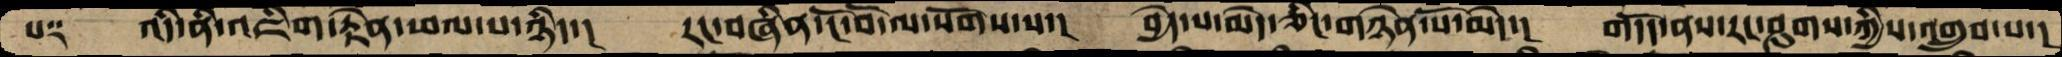པ༑   འདི་ནི་འཇིག་རྟེན་ཕལ་པ་ཉིད་།  རང་བཞིན་ངོ་བོ་ལ་སོགས་པ་།  བྱེད་པ་མེད་ཅིང་གཉེན་པོ་མེད་།  གདོད་ནས་རང་ཤུགས་ཀྱིས་འགྲུབ་པ་།
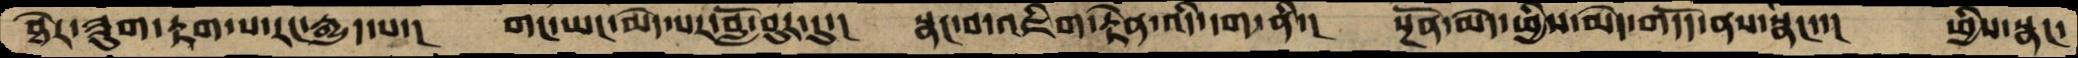ཐེར་ཟུག་རྟག་པ་རང་རྒྱུད་པ་།  གང་ཡང་མེད་པར་བློ་བུར་དུ་།  སྣང་བ་འཇིག་རྟེན་འདི་དག་ནི་།  སྔོན་མེད་ཕྱིས་མེད་གདོད་ནས་སྣང་་།  ཕྱིས་སྣང་
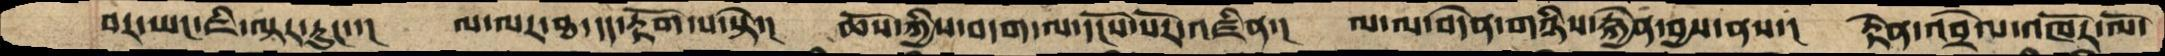བར་ཡང་ཇི་ལྟར་རུང་་།  ལ་ལར་ཐ་དད་རྟོག་པ་སྟེ་།  ཆོས་ཀྱིས་བདག་ལ་དངོས་པོར་འཛིན་།  ལ་ལ་བདེན་གཉིས་རྐྱེན་བྱས་ནས་།  རྟེན་འབྲེལ་འཁོར་ལོ་
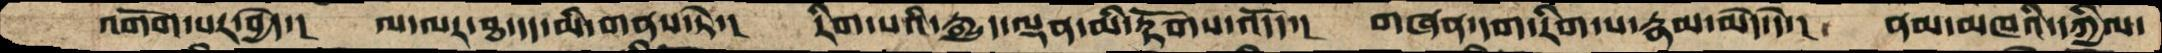འགོག་པར་བྱེད་།   ལ་ལར་ཐ་དད་མི་གནས་ཏེ་།  རིག་པའི་རྒྱུད་ལྡན་མི་རྟོགས་འདོད་།  གཞན་དག་རིག་པ་རྣམ་མེད་དེ་།  ནམ་མཁའི་དཀྱིལ་
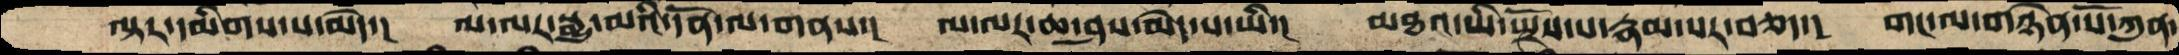ལྟར་དམིགས་པ་མེད་།།  ལ་ལར་སྒྱུ་མའི་དོན་ལ་གནས་།  ལ་ལར་ཆ་ཤས་མེད་པ་ཡི་།  མཐའ་ཡི་སྤྲོས་པ་རྣམ་པར་བཅད་།  གང་ལ་གཉེན་པོ་ཀུན་
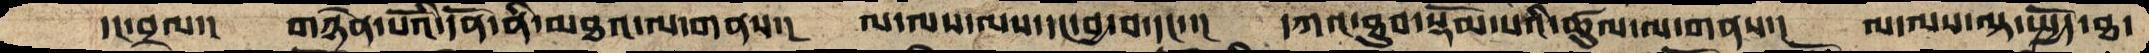དང་བྲལ་།  གཉེན་པོའི་དོན་ནི་མཐའ་ལ་གནས་།  ལ་ལས་ལས་དང་བྱ་བ་དང་་།  དཀའ་ཐུབ་སྡོམ་པའི་ཚུལ་ལ་གནས་།  ལ་ལས་ལྟ་སྤྱོད་ཐ་
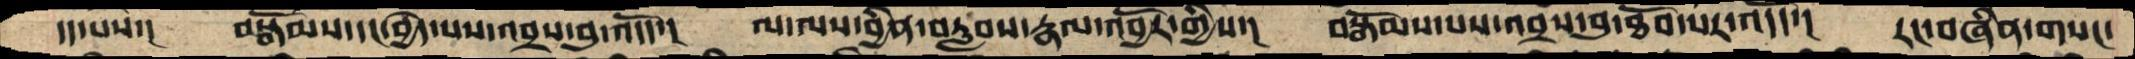དད་པས་།  བསྒོམས་དང་བྱེད་པས་འབྲས་བུ་འདོད་།  ལ་ལས་བྱིན་བརླབས་རྣལ་འབྱོར་གྱིས་།  བསྒོམས་པས་འབྲས་བུ་ཐོབ་པར་འདོད་།  རང་བཞིན་གསང་
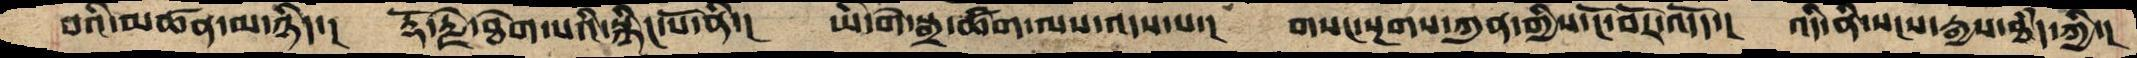བའི་མཚན་མ་ཉིད་།  རྡོ་རྗེ་ཐེག་པའི་སྙིང་པོ་ནི་།  ཡི་གེ་སྒྲ་ཚིག་ལས་འདས་པ་།  གསང་སྔགས་ཀུན་གྱིས་ངོ་བོར་འདོད་།  འདི་ནི་སངས་རྒྱས་ཐཾད་ཀྱི་།
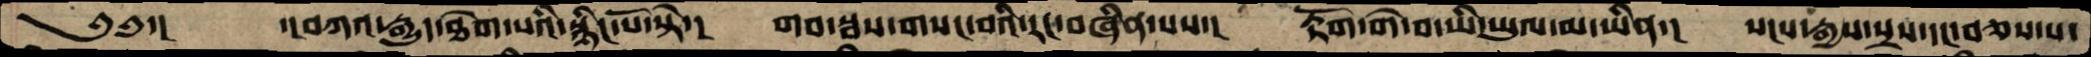༄༅་།      ་།བཀའ་རྒྱུད་ཐེག་པའི་སྙིང་པོ་སྟེ་།  གབ་སྦས་གསང་བའི་རང་བཞིན་པས་།  རྟོག་གེ་བ་ཡི་ཡུལ་མ་ཡིན་།  སངས་རྒྱས་སྲས་དང་བཅས་པ་
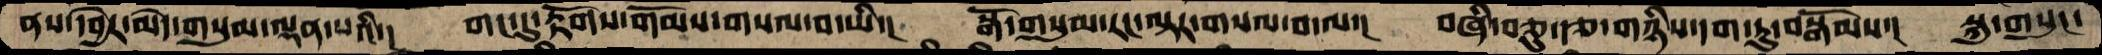ནས་དབྱེར་མེད་གསུམ་ལྡན་པའི་།  གང་དུ་རྟོགས་གོམས་གསལ་བ་ཡི་།  སྒོ་གསུམ་རང་ལྟར་གསལ་བ་ལ་།  བཞི་བཅུ་རྩ་གཉིས་དག་ཏུ་བསྒོམས་།  སྐུ་གསུང་
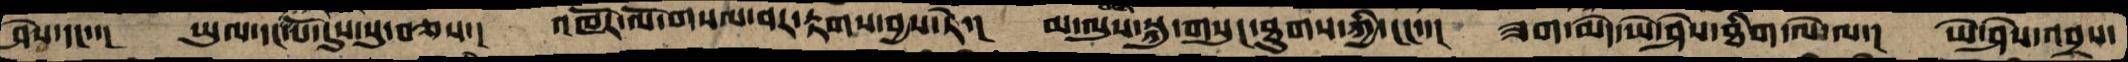ཤེས་དང་་།  ཡུལ་དང་པོ་དུས་སུ་བཅས་།  འཁོར་ལོ་གསལ་བར་རྟགས་བྱས་ཏེ་།  མ་ལུས་སྐུ་གསུང་ཐུགས་ཀྱི་ངང་་།  ཟག་མེད་ཡེ་ཤེས་ཐིག་ལེ་ལ་།  ཡེ་ཤེས་འབྲས་
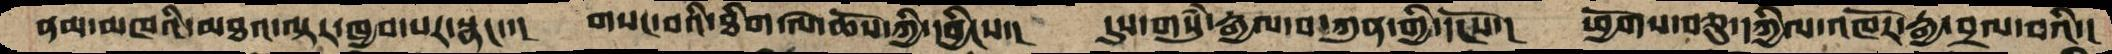ནམ་མཁའི་མཐའ་ལྟར་ཁྱབ་པར་སྣང་་།   གསང་བའི་ཐིག་ལེ་ཆོས་ཀྱི་དབྱིངས་།  དུས་གསུཾ་རྒྱལ་བ་ཀུན་གྱི་དངོས་།  ཕྱོག་བཅུ་དཀྱིལ་འཁོར་རྒྱ་བྲལ་བའི་།
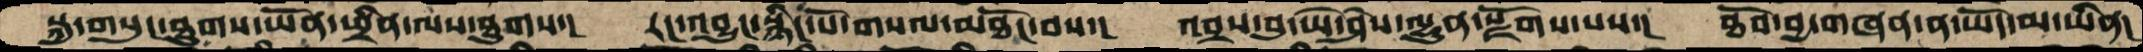སྐུ་གསུང་ཐུགས་ཡོན་ཕྲིན་ལས་ཐུགས་།  རང་འབྱུང་སྙིང་པོ་གསལ་མཐོང་བས་།  འབྲས་བུ་ཡེ་ཤེས་ལྷུན་སྫོགས་པས་།  ཐོབ་བྱ་གཞན་ན་ཡོད་མ་ཡིན་།
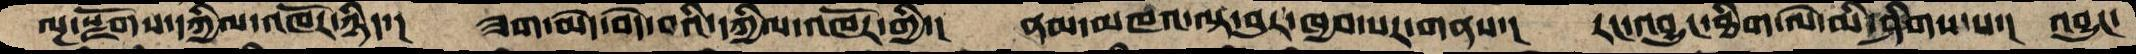ལྔ་སྫོགས་དཀྱིལ་འཁོར་ཉིད་།  ཟག་མེད་བདེ་བའི་དཀྱིལ་འཁོར་གྱི་།  ནམ་མཁའ་ལྟ་བུར་ཁྱབ་པར་གནས་།  རང་འབྱུང་ཐིག་ལེ་མི་ཤིགས་པ་།  འབྱུང་
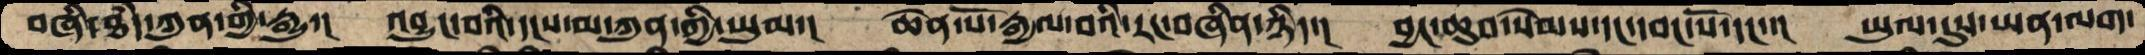བཞི་ཐཾད་ཀུན་གྱི་རྒྱུ་།  འབྱུང་བའི་དངས་མ་ཀུན་གྱི་ཡུམ་།  ཆེན་པོ་རྒྱལ་བའི་རང་བཞིན་ཉིད་།  བྱང་ཆུབ་སེམས་དང་དབང་པོ་དང་་།  ཡུལ་དུས་ཡན་ལག་
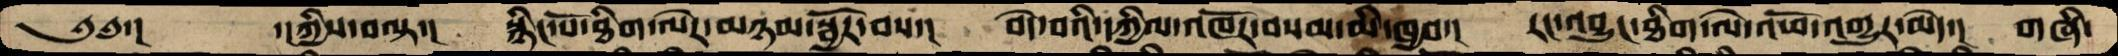༄༅་།        ་།ཀྱིས་བལྟ་།    སྙིང་པོ་ཐིག་ལེར་མཉམ་སྦྱོར་བས་།   བདེ་བའི་དཀྱིལ་འཁོར་བསམ་མི་ཁྱབ་།   རང་འབྱུང་ཐིག་ལེ་འཕོ་འགྱུར་མེད་།  གཞི་
